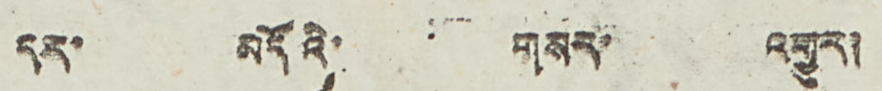དར་ མདོའི་ གསར་ འགྱུར།
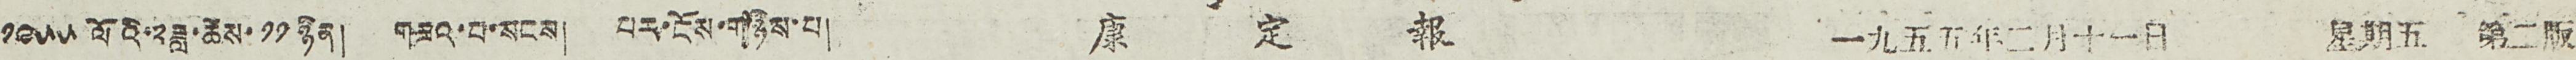༡༩༥༥ ལོའི་༢ཟླ་ཚེས་ ༡༡ ཉིན། གཟའ་པ་སངས། པར་ངོས་གཉིས་པ། 康 定 報 一九五五年二月十一日 星期五 第二版
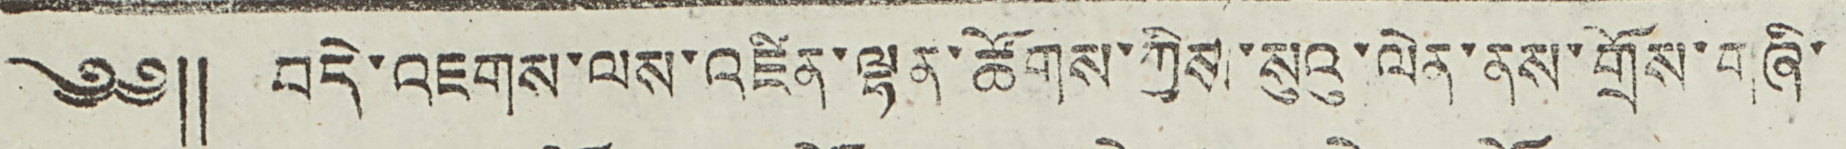༄༅༎ བདེ་འཇགས་ལས་འཛིན་ལྷན་ཚོགས་ཀྱིས་སུའུ་ལེན་ནས་གྲོས་གཞི་
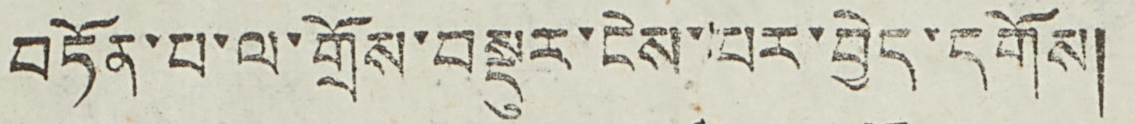བཏོན་པ་ལ་གྲོས་བསྡུར་ངེས་པར་བྱེད་དགོས།
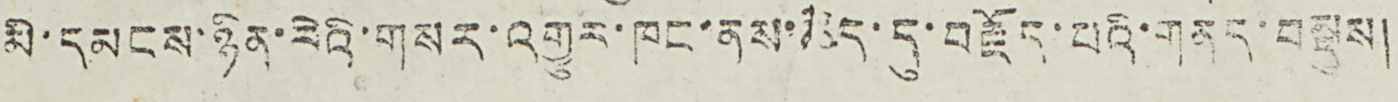མི་དམངས་ཉིན་རེའི་གསར་འགྱུར་ཁང་ནས་ཆེད་དུ་བརྗོད་པའི་གནད་བསྡུས།
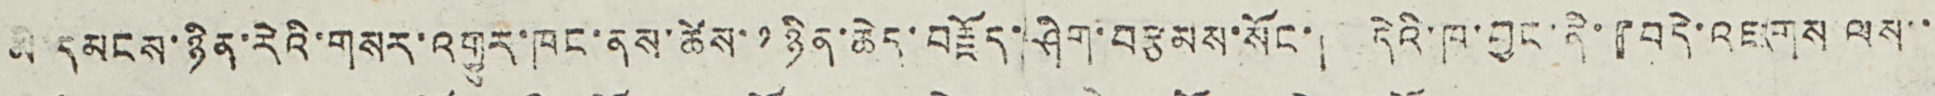མི་དམངས་ཉིན་རེའི་གསར་འགྱུར་ཁང་ནས་ཚེས་ ༡ ཉིན་ཆེད་བརྗོད་ཤིག་བརྩམས་སོང་། དེའི་ཁ་བྱང་ནི་『བདེ་འཇགས ལས་་
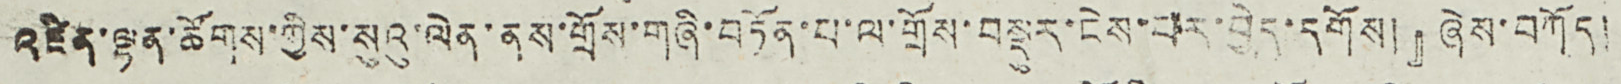འཛིན་ལྷན་ཚོགས་ཀྱིས་སུའུ་ལེན་ནས་གྲོས་གཞི་བཏོན་པ་ལ་གྲོས་བསྡུར་ངེས་པར་བྱེད་དགོས།』ཞེས་བཀོད།
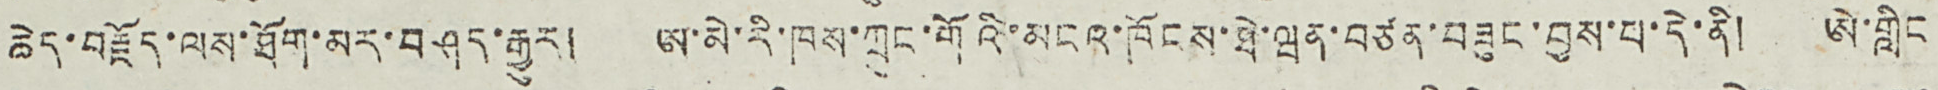ཆེད་བརྗོད་ལས་ཐོག་མར་བཤད་རྒྱུར། ཨ་མེ་རི་ཁས་ཀྲུང་གོའི་མངའ་ཁོངས་ཐེ་ཝན་བཙན་བཟུང་བྱས་པ་དེ་ནི། ཨེ་གླིང
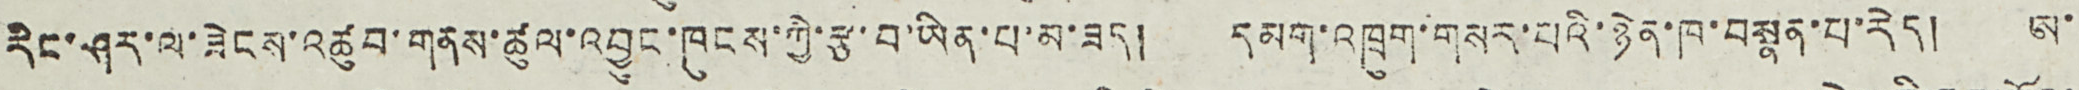རིང་ཤར་ལ་ཟེངས་འཚུབ་གནས་ཚུལ་འབྱུང་ཁུངས་ཀྱི་རྩ་བ་ཡིན་པ་མ་ཟད། དམག་འཁྲུག་གསར་པའི་ཉེན་ཁ་བསྣན་པ་རེད། ཨ་
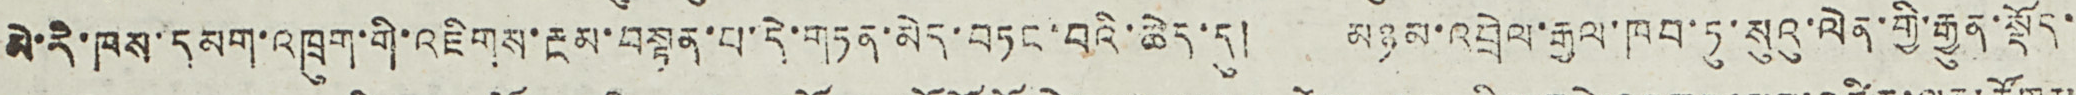མེ་རི་ཁས་དམག་འཁྲུག་གི་འཇིགས་རྔམ་བསྟན་པ་དེ་གཏན་མེད་བཏང་བའི་ཆེད་དུ། མཉམ་འབྲེལ་རྒྱལ་ཁབ་ཏུ་སུའུ་ལེན་གྱི་རྒྱུན་སྡོད་
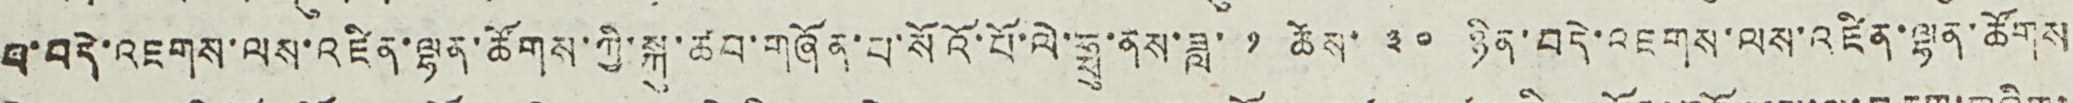བ་བདེ་འཇགས་ལས་འཛིན་ལྷན་ཚོགས་ཀྱི་སྐུ་ཚབ་གཞོན་པ་སོའོ་པོ་ལེ་ཧྥུ་ནས་ཟླ་ ༡ ཚེས་ ༣༠ ཉིན་བདེ་འཇགས་ལས་འཛིན་ལྷན་ཚོགས
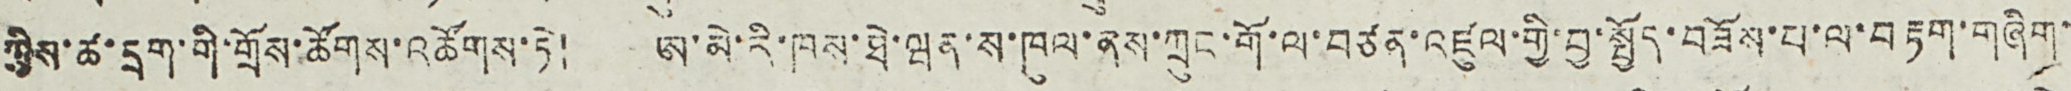ཀྱིས་ཚ་དྲག་གི་གྲོས་ཚོགས་འཚོགས་ཏེ། ཨ་མེ་རི་ཁས་ཐེ་ཝན་ས་ཁུལ་ནས་ཀྲུང་གོ་ལ་བཙན་འཛུལ་གྱི་བྱ་སྤྱོད་བཟོས་པ་ལ་བརྟག་གཞིག་
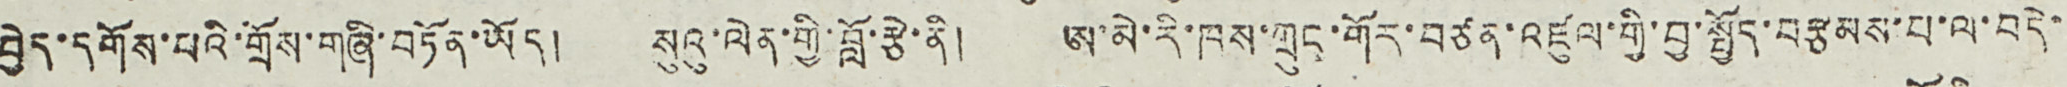བྱེད་དགོས་པའི་གྲོས་གཞི་བཏོན་ཡོད། སུའུ་ལེན་གྱི་བློ་རྩེ་ནི། ཨ་མེ་རི་ཁས་ཀྲུང་གོར་བཙན་འཛུལ་གྱི་བྱ་སྤྱོད་བརྩམས་པ་ལ་བདེ་
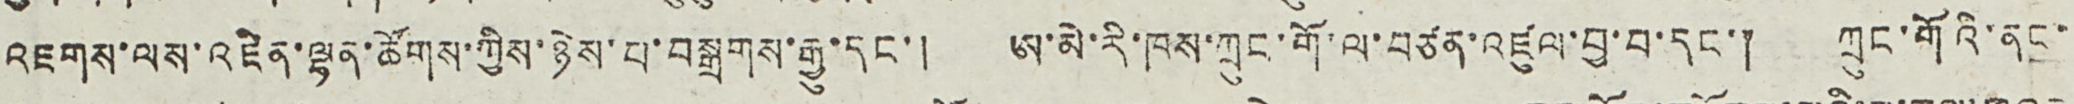འཇགས་ལས་འཛིན་ལྷན་ཚོགས་ཀྱིས་ཉེས་པ་བསྒྲགས་རྒྱུ་དང་། ཨ་མེ་རི་ཁས་ཀྲུང་གོ་ལ་བཙན་འཛུལ་བྱ་བ་དང་། ཀྲུང་གོའི་ནང་
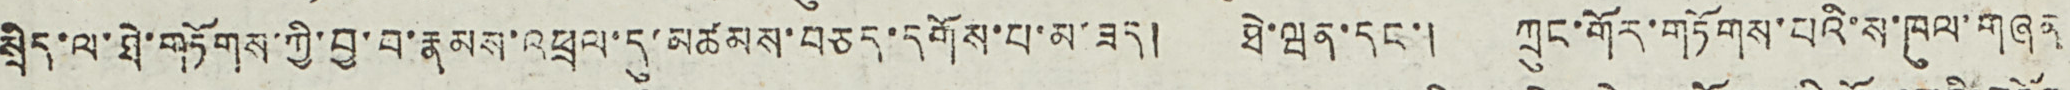སྲིད་ལ་ཐེ་གཏོགས་ཀྱི་བྱ་བ་རྣམས་འཕྲལ་དུ་མཚམས་བཅད་དགོས་པ་མ་ཟད། ཐེ་ཝན་དང་། ཀྲུང་གོར་གཏོགས་པའི་ས་ཁུལ་གཞན
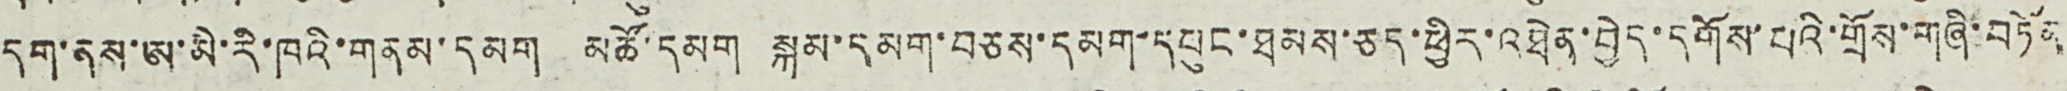དག་ནས་ཨ་མི་རི་ཁའི་གནམ་དམག མཚོ་དམག སྐམ་དམག་བཅས་དམག་དཔུང་ཐམས་ཅད་ཕྱིར་འཐེན་བྱེད་དགོས་པའི་གྲོས་གཞི་བཏོན
